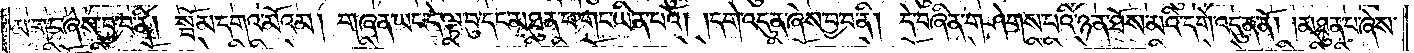མ་གང་ཞེས་བྱ་བ་ནི། སྦོམ་དགའ་མོའམ། གཞན་ཡང་དེ་ལྟ་བུ་དང་མཐུན་པ་གང་ཡིན་པའོ། །དགེ་འདུན་ཞེས་བྱ་བ་ནི། དེ་བཞིན་གཤེགས་པའི་ཉན་ཐོས་མའི་དགེ་འདུན་ནོ། །མཐུན་པ་ཞེས་
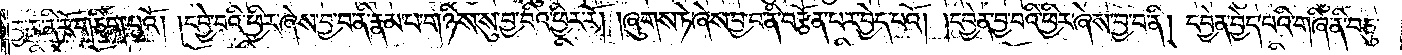བྱ་བ་ནི་རོ་གཅིག་པའོ། །དབྱེ་བའི་ཕྱིར་ཞེས་བྱ་བ་ནི་རྣམ་པ་གཉིས་སུ་བྱ་བའི་ཕྱིར་རོ། །ཞུགས་ཏེ་ཞེས་བྱ་བ་ནི་བརྩོན་པར་བྱེད་པའོ། །དབྱེན་བྱ་བའི་ཕྱིར་ཞེས་བྱ་བ་ནི། དབྱེན་བྱེད་པའི་གཞི་ནི་བཅུ་
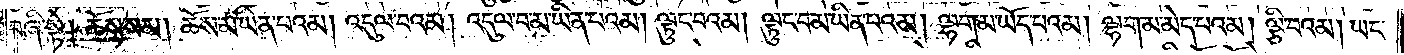བཞི་སྟེ། ཆོས་སམ། ཆོས་མ་ཡིན་པའམ། འདུལ་བའམ། འདུལ་བ་མ་ཡིན་པའམ། ལྟུང་བའམ། ལྟུང་བ་མ་ཡིན་པའམ། ལྷག་མ་ཡོད་པའམ། ལྷག་མ་མེད་པའམ། ལྕི་བའམ། ཡང་
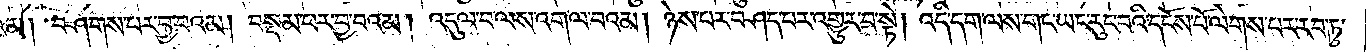མ། བཤགས་པར་བྱ་བའམ། བསྡམ་པར་བྱ་བའམ། འདུལ་བ་ལས་འགལ་བའམ། ཉེས་པར་བཤད་པར་འགྱུར་བ་སྟེ། འདི་དག་ལས་གང་ཡང་རུང་བའི་དངོས་པོ་ལེགས་པར་རབ་ཏུ་
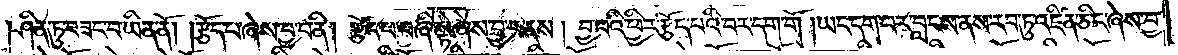ཤིན་ཏུ་བཟང་བ་ཡིན་ནོ། །རྩོད་པ་ཞེས་བྱ་བ་ནི། རྩོད་པ་བཞི་སྟེ་ཞེས་བྱ་བ་ནས། བྱ་བའི་ཕྱིར་རྩོད་པའི་བར་དག་གོ །ཡང་དག་པར་བླངས་ནས་རབ་ཏུ་འཛིན་ཅིང་ཞེས་བྱ་
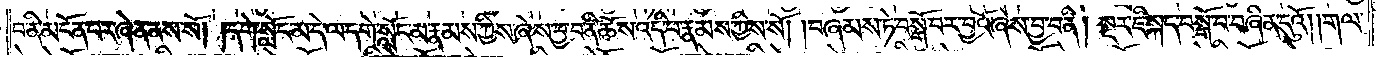བ་ནི་མངོན་པར་ཞེན་ནས་སོ། །དགེ་སློང་མ་དེ་ལ་དགེ་སློང་མ་རྣམས་ཀྱིས་ཞེས་བྱ་བ་ནི་ཆོས་འདི་པ་རྣམས་ཀྱིས་སོ། །བཞམས་ཏེ་བསྒོ་བར་བྱའོ་ཞེས་བྱ་བ་ནི། སྔར་ཇི་སྐད་བསྒོ་བ་བཞིན་དུའོ། །གལ་
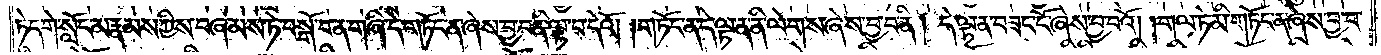ཏེ་དགེ་སློང་མ་རྣམས་ཀྱིས་བཞམས་ཏེ་བསྒོ་བ་ན་གཞི་དེ་གཏོང་ན་ཞེས་བྱ་བ་ནི་ལྟ་བ་དེའོ། །གཏོང་ན་དེ་ལྟ་ན་ནི་ལེགས་ཞེས་བྱ་བ་ནི། དེ་ལྟ་ན་བཟང་ངོ་ཞེས་བྱ་བའོ། །གལ་ཏེ་མི་གཏོང་ན་ཞེས་བྱ་བ་
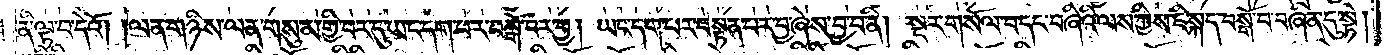ནི་ལྟ་བ་དེའོ། །ལན་གཉིས་ལན་གསུམ་གྱི་བར་དུ་ཡང་དག་པར་བསྒོ་བར་བྱ། ཡང་དག་པར་བསྟན་པར་བྱ་ཞེས་བྱ་བ་ནི། སྔར་གསོལ་བ་དང་བཞིའི་ལས་ཀྱིས་ཇི་སྐད་བསྒོ་བ་བཞིན་དུ་སྟེ།
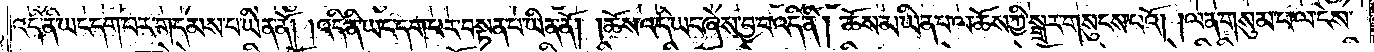འདི་ནི་ཡང་དག་པར་གདམས་པ་ཡིན་ནོ། །འདི་ནི་ཡང་དག་པར་བསྟན་པ་ཡིན་ནོ། །ཆོས་འདི་ཡང་ཞེས་བྱ་བ་འདི་ནི། ཆོས་མ་ཡིན་པ་ལ་ཆོས་ཀྱི་སྒྲར་གསུངས་པའོ། །ལན་གསུམ་པ་ལ་ངེས་
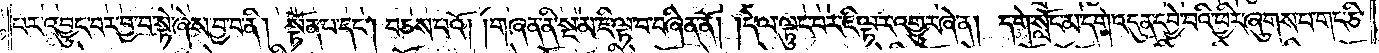པར་འབྱུང་བར་བྱ་བ་སྟེ་ཞེས་བྱ་བ་ནི། སྟོན་པ་དང༌། བཅས་པའོ། །གཞན་ནི་སྔ་མ་ཇི་ལྟ་བ་བཞིན་ནོ། །དེ་ལ་ལྟུང་བར་ཇི་ལྟར་འགྱུར་ཞེ་ན། དགེ་སློང་མ་དགེ་འདུན་དབྱེ་བའི་ཕྱིར་ཞུགས་པ་གང་ཅི་
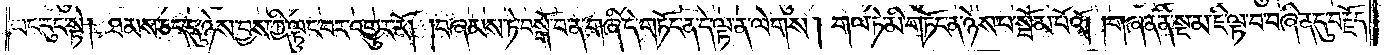ཡང་རུང་སྟེ། ཐམས་ཅད་དུ་ཉེས་བྱས་ཀྱི་ལྟུང་བར་འགྱུར་རོ། །བཞམས་ཏེ་བསྒོ་བ་ན་གཞི་དེ་གཏོང་ན་དེ་ལྟ་ན་ལེགས། གལ་ཏེ་མི་གཏོང་ན་ཉེས་པ་སྦོམ་པོའོ། །གཞན་ནི་སྔ་མ་ཇི་ལྟ་བཞིན་དུ་བརྗོད་
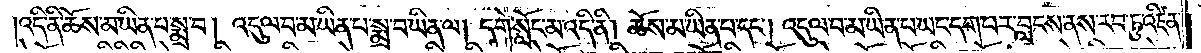འདི་ནི་ཆོས་མ་ཡིན་པ་སྨྲ་བ། འདུལ་བ་མ་ཡིན་པ་སྨྲ་བ་ཡིན་ལ། དགེ་སློང་མ་འདི་ནི། ཆོས་མ་ཡིན་པ་དང༌། འདུལ་བ་མ་ཡིན་པ་ཡང་དག་པར་བླངས་ནས་རབ་ཏུ་འཛིན་
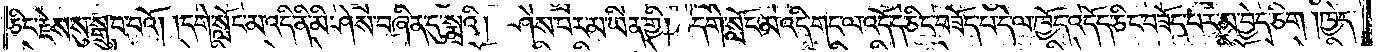ཅིང་རྗེས་སུ་སྒྲུབ་པའོ། །དགེ་སློང་མ་འདི་ནི་མི་ཤེས་བཞིན་དུ་སྨྲའི། ཤེས་པར་མ་ཡིན་གྱི། དགེ་སློང་མ་འདི་གང་ལ་འདོད་ཅིང་བཟོད་པ་དེ་ལ་ཁྱོད་འདོད་ཅིང་བཟོད་པར་མ་བྱེད་ཅིག །ཁྱེད་
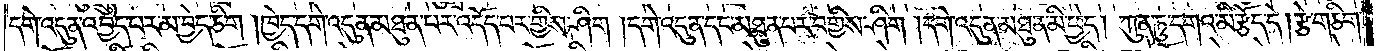དགེ་འདུན་འབྱེད་པར་མ་བྱེད་ཅིག །ཁྱེད་དགེ་འདུན་མཐུན་པར་འདོད་པར་གྱིས་ཤིག །དགེ་འདུན་དང་མཐུན་པར་བགྱིས་ཤིག །དགེ་འདུན་མཐུན་མི་ཕྱེད། ཀུན་ཏུ་དགའ་མི་རྩོད་དེ། རྩེ་གཅིག་
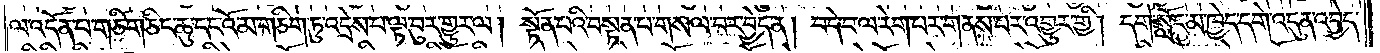ལ་འདོན་པ་གཅིག་ཅིང་ཆུ་དང་འོ་མ་གཅིག་ཏུ་འདྲེས་པ་ལྟ་བུར་གྱུར་ལ། སྟོན་པའི་བསྟན་པ་གསལ་བར་བྱེད་ན། བདེ་བ་ལ་རེག་པར་གནས་པར་འགྱུར་གྱི། དགེ་སློང་མ་ཁྱེད་དགེ་འདུན་འབྱེད་
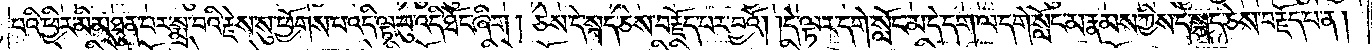པའི་ཕྱིར་མི་མཐུན་པར་སྨྲ་བའི་རྗེས་སུ་ཕྱོགས་པ་འདི་ལྟ་བུ་འདི་ཐོང་ཞིག། ཅེས་དེ་སྐད་ཅེས་བརྗོད་པར་བྱའོ། །དེ་ལྟར་དགེ་སློང་མ་དེ་དག་ལ་དགེ་སློང་མ་རྣམས་ཀྱིས་དེ་སྐད་ཅེས་བརྗོད་པ་ན།
